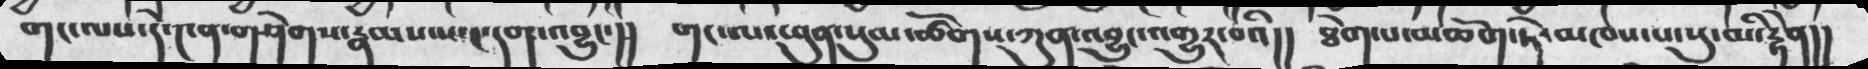གང་ལས་དེ་༤ན་གཤེགས་རྣམས་ཡང་དག་འབྱུང་།།  གང་ལ་ཕུན་སུམ་ཚོགས་ཀུན་འབྱུང་འགྱུར་བའི།།  ཐེག་པ་མཆོག་ཏེ་མཁས་པ་སུ་མི་རྟེན།།
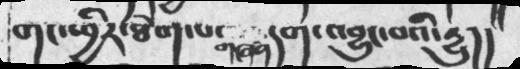གང་ཕྱིར་ཐེག་པ་གཞན་དག་འབྱུང་་བའི་དྱུ།།
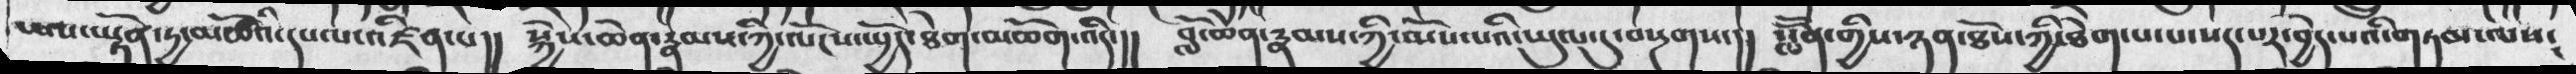ཡས་ཡོནྟ་དྱ་མཚོའི་དཔལ་འཛིན་པ།།  སྐྱེས་ཆེན་རྣམས་ཀྱི་ལོངས་སྤྱོད་ཐེག་མཆོག་འདི་།།   བློ་ཆེན་རྣམས་ཀྱི་མོས་པའི་ཡུལ་དུ་བསྔགས་།།  སློོན་གྱིས་ཉན་ཐོས་ཀྱི་ཐེག་པ་ལ་སད་པར་བྱེད་པའི་གཏམ་ལས༴
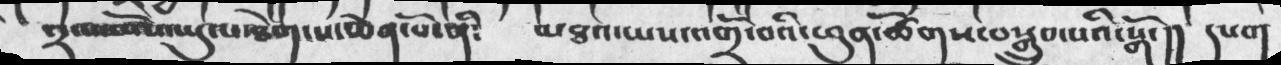༢་པ་མོས་ཡུལ་ཐེག་པ་ཆེན་པོ་ནི༴   མཐའ་ཡས་འགྲོ་བའི་ཕུན་ཚོགས་བསྒྲུབ་པའི་སྒོ་།།  དཔག
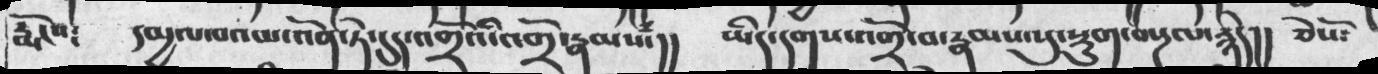རྨོངས༴  དམྱལ་བའམ་འོན་ཏེ་དུད་འགྲོའི་འགྲོ་རྣམས་།།  ཡིད་དགས་འགྲོ་བ་རྣམས་སུ་སྡུག་བསྔལ་རྙེད།། ཅེསོ༴
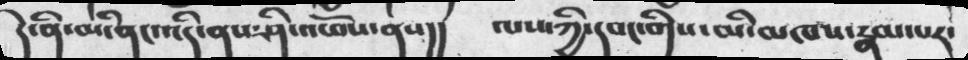དེ་ནི་མི་ནང་འདི་ནས་ཤི་འཕོས་ནས།། ལས་ཀྱི་དབང་གིས་མི་མཁས་རྣམ་པར་
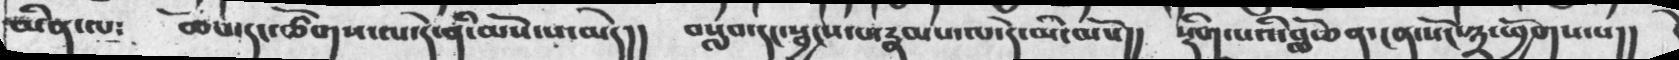མིན་ལ༴  ཆོས་དང་ཚོགས་ལ་དེ་ནི་མོས་པ་མེད།།  བསླབ་དང་སྦྱངས་པ་རྣམས་ལ་དེ་མི་མོས།།  སྡིག་པའི་བློ་ཅན་ངན་སོང་༣་ཕྱོགས་པ།།
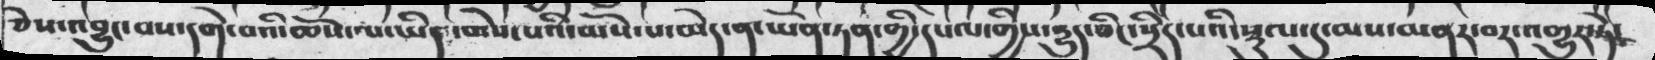ཅེས་འབྱུང་བས་དགེ་བའི་ཆོས་ལ་ཡིད་དགེས་པའི་མོས་པ་མེད་ན་ཡོན་ཏན་གྱི་དཔལ་གྱིས་རྱུད་ཅིང་སྲིད་པའི་སྡུལ་དུ་མས་མནར་བར་འགྱུར་ཏེ་
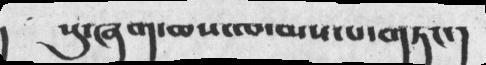། སུ་ཞག་ཆས་ལ་མས་པ་གཏང་།
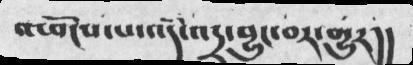འཕོངས་པ་འདི་འདྲ་བྱུང་བར་གྱུར།།
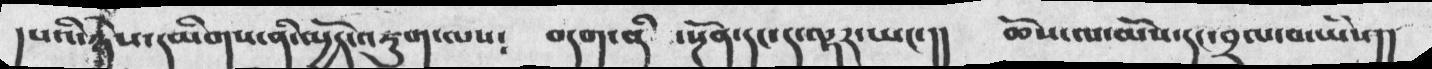།པའི་ཉེས་དམིགས་ནི་སྤྱོད་འཇུག་ལས༴  བདག་ནི ་སྔོན་དང་ད་ལྟར་ཡང་།།  ཆོས་ལ་མོས་དང་བྲལ་བ་ཡིས།།
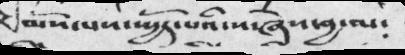མོས་པས་སྤྱོད་པའི་ས་ཞེས་བྱ་ལ་
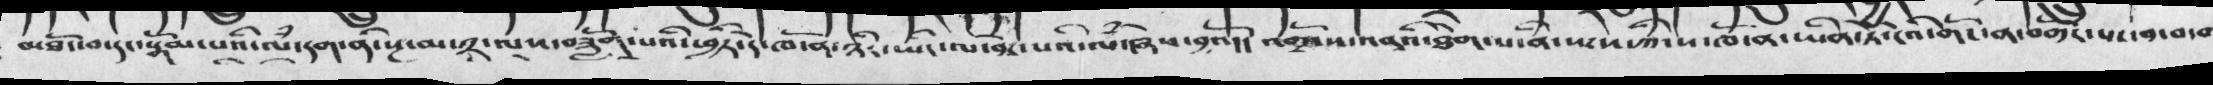མཐོང་བ་དང་སྒོམ་པའི་ལཾ་དག་ནི་སྔ་མ་༢་ལས་བཟློག་པའི་ཕྱིར་དེ་ཁོ་ན་ཉིད་ཡིད་ལ་བྱེད་པའ་ལཾ་ཞེས་བྱའོ།།  འགྲོ་ས་འབྲུའི་ཐེག་པ་ནི་སདྱས་ཀྱི་ས་ཁོ་ན་ཡིན་ཏེ་དེའི་གོང་ན་བགྲོད་པར་བྱ་བདག
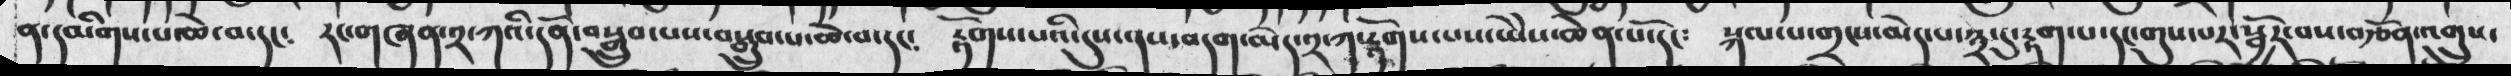ན་དམིགས་པ་ཆེ་བ་དང༴  རང་གཞན་༢་ཀའི་དོན་བསྒྲུབ་པས་བསྒྲུབ་པ་ཆེ་བ་དང༴  རྟོགས་པའི་དུས་ནས་བདག་མེད་༢་ཀ་རྟོགས་པས་ཡཻས་ཆེན་པོ་དང༴  སྐལ་པ་གྲངས་མེད་པ་༣་དུ་རྟག་པ་དང་གུས་པར་སྦྱོར་བས་བརྩོན་འགྲུས་
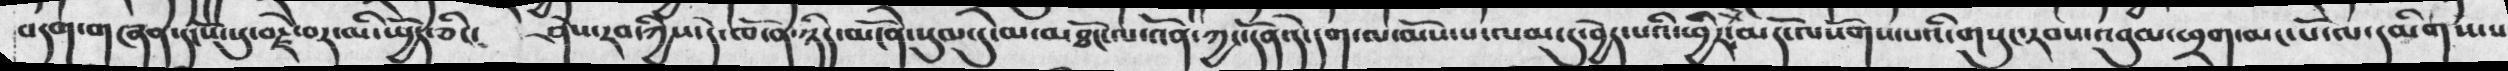བདག་གཞན་དངོས་སུ་བརྗེ་བར་མི་སྤྱོད་ཅིང་ ཤེས་རབ་ཀྱིས་དེ་ཁོ་ན་ཉིད་མངོན་སུམ་དུ་མ་མཐོང་ལ་འོན་ཀྱང་དོན་དེ་དག་ལ་མོས་པ་ལམ་དུ་བྱེད་པའི་ཕྱིར་མདོ་ལསོགས་པའི་གསུང་རབས་འབུམ་ཕྲག་མང་པོ་ལ་དམིགས་པ
